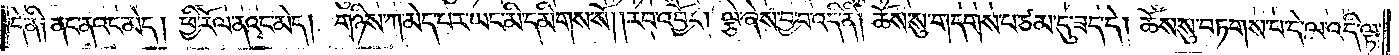དེ་ནི༑ ནང་ནའང་མེད། ཕྱི་རོལ་ནའང་མེད། གཉིས་ཀ་མེད་པར་ཡང་མི་དམིགས་སོ། །རབ་འབྱོར། ལྕེ་ཞེས་བྱ་བ་འདི་ནི། ཆོས་སུ་གདགས་པ་ཙམ་དུ་ཟད་དེ། ཆོས་སུ་བཏགས་པ་དེ་ལ་འདི་ལྟ་
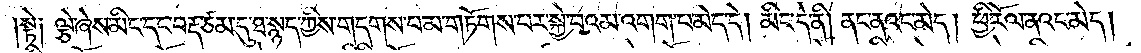སྟེ༑ ལྕེ་ཞེས་མིང་དང་བརྡ་ཙམ་དུ་ཐ་སྙད་ཀྱིས་གདགས་པ་མ་གཏོགས་པར་སྐྱེ་བའམ་འགག་པ་མེད་དེ། མིང་དེ་ནི། ནང་ནའང་མེད། ཕྱི་རོལ་ནའང་མེད།
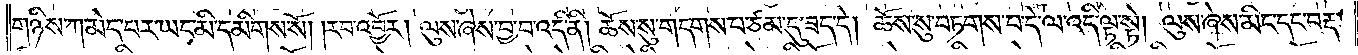གཉིས་ཀ་མེད་པར་ཡང་མི་དམིགས་སོ། །རབ་འབྱོར། ལུས་ཞེས་བྱ་བ་འདི་ནི། ཆོས་སུ་གདགས་པ་ཙམ་དུ་ཟད་དེ། ཆོས་སུ་བཏགས་པ་དེ་ལ་འདི་ལྟ་སྟེ། ལུས་ཞེས་མིང་དང་བརྡ་
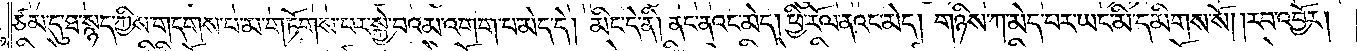ཙམ་དུ་ཐ་སྙད་ཀྱིས་གདགས་པ་མ་གཏོགས་པར་སྐྱེ་བའམ་འགག་པ་མེད་དེ། མིང་དེ་ནི། ནང་ནའང་མེད། ཕྱི་རོལ་ནའང་མེད། གཉིས་ཀ་མེད་པར་ཡང་མི་དམིགས་སོ། །རབ་འབྱོར།
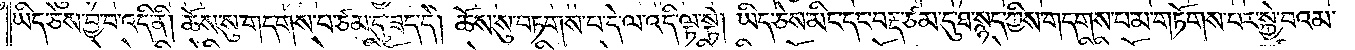ཡིད་ཅེས་བྱ་བ་འདི་ནི། ཆོས་སུ་གདགས་པ་ཙམ་དུ་ཟད་དེ། ཆོས་སུ་བཏགས་པ་དེ་ལ་འདི་ལྟ་སྟེ། ཡིད་ཅེས་མིང་དང་བརྡ་ཙམ་དུ་ཐ་སྙད་ཀྱིས་གདགས་པ་མ་གཏོགས་པར་སྐྱེ་བའམ་
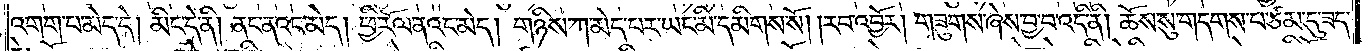འགག་པ་མེད་དེ། མིང་དེ་ནི། ནང་ནའང་མེད། ཕྱི་རོལ་ནའང་མེད། གཉིས་ཀ་མེད་པར་ཡང་མི་དམིགས་སོ། །རབ་འབྱོར། གཟུགས་ཞེས་བྱ་བ་འདི་ནི། ཆོས་སུ་གདགས་པ་ཙམ་དུ་ཟད་
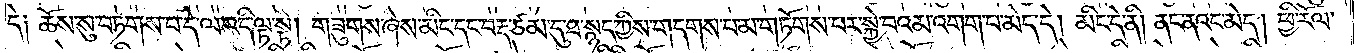དེ༑ ཆོས་སུ་བཏགས་པ་དེ་ལ་འདི་ལྟ་སྟེ། གཟུགས་ཞེས་མིང་དང་བརྡ་ཙམ་དུ་ཐ་སྙད་ཀྱིས་གདགས་པ་མ་གཏོགས་པར་སྐྱེ་བའམ་འགག་པ་མེད་དེ། མིང་དེ་ནི། ནང་ནའང་མེད། ཕྱི་རོལ་
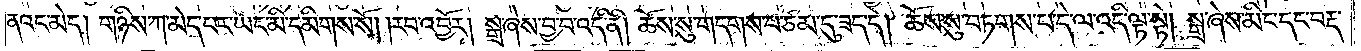ནའང་མེད། གཉིས་ཀ་མེད་པར་ཡང་མི་དམིགས་སོ། །རབ་འབྱོར། སྒྲ་ཞེས་བྱ་བ་འདི་ནི། ཆོས་སུ་གདགས་པ་ཙམ་དུ་ཟད་དེ། ཆོས་སུ་བཏགས་པ་དེ་ལ་འདི་ལྟ་སྟེ། སྒྲ་ཞེས་མིང་དང་བརྡ་
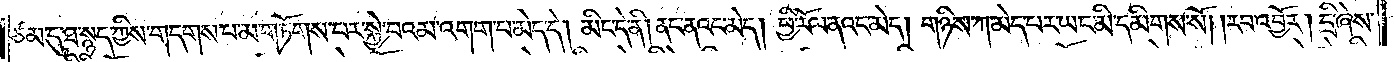ཙམ་དུ་ཐ་སྙད་ཀྱིས་གདགས་པ་མ་གཏོགས་པར་སྐྱེ་བའམ་འགག་པ་མེད་དེ། མིང་དེ་ནི། ནང་ནའང་མེད། ཕྱི་རོལ་ནའང་མེད། གཉིས་ཀ་མེད་པར་ཡང་མི་དམིགས་སོ། །རབ་འབྱོར། དྲི་ཞེས་
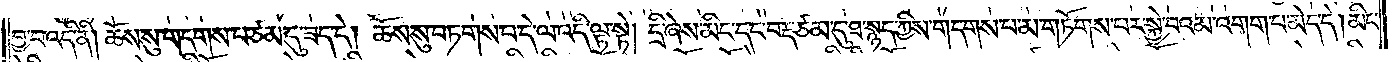བྱ་བ་འདི་ནི། ཆོས་སུ་གདགས་པ་ཙམ་དུ་ཟད་དེ། ཆོས་སུ་བཏགས་པ་དེ་ལ་འདི་ལྟ་སྟེ། དྲི་ཞེས་མིང་དང་བརྡ་ཙམ་དུ་ཐ་སྙད་ཀྱིས་གདགས་པ་མ་གཏོགས་པར་སྐྱེ་བའམ་འགག་པ་མེད་དེ། མིང་
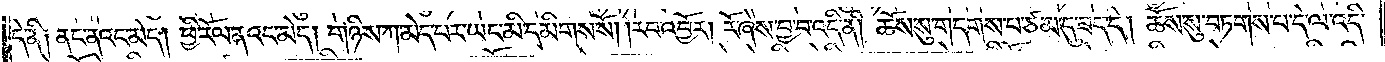དེ་ནི༑ ནང་ནའང་མེད། ཕྱི་རོལ་ནའང་མེད། གཉིས་ཀ་མེད་པར་ཡང་མི་དམིགས་སོ། །རབ་འབྱོར། རོ་ཞེས་བྱ་བ་འདི་ནི། ཆོས་སུ་གདགས་པ་ཙམ་དུ་ཟད་དེ། ཆོས་སུ་བཏགས་པ་དེ་ལ་འདི་
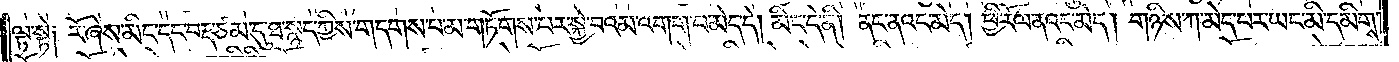ལྟ་སྟེ༑ རོ་ཞེས་མིང་དང་བརྡ་ཙམ་དུ་ཐ་སྙད་ཀྱིས་གདགས་པ་མ་གཏོགས་པར་སྐྱེ་བའམ་འགག་པ་མེད་དེ། མིང་དེ་ནི། ནང་ནའང་མེད། ཕྱི་རོལ་ནའང་མེད། གཉིས་ཀ་མེད་པར་ཡང་མི་དམིགས་
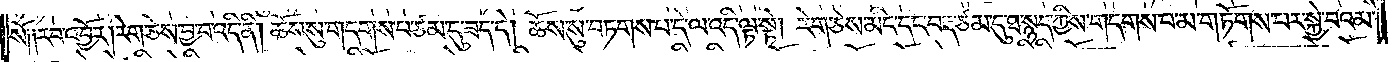སོ༑ ༑རབ་འབྱོར། རེག་ཅེས་བྱ་བ་འདི་ནི། ཆོས་སུ་གདགས་པ་ཙམ་དུ་ཟད་དེ། ཆོས་སུ་བཏགས་པ་དེ་ལ་འདི་ལྟ་སྟེ། རེག་ཅེས་མིང་དང་བརྡ་ཙམ་དུ་ཐ་སྙད་ཀྱིས་གདགས་པ་མ་གཏོགས་པར་སྐྱེ་བའམ་
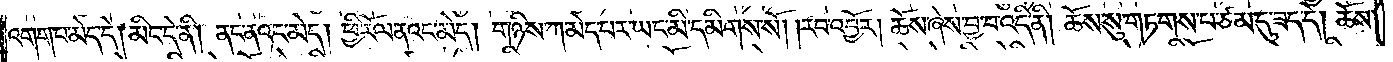འགག་པ་མེད་དེ། མིང་དེ་ནི། ནང་ནའང་མེད། ཕྱི་རོལ་ནའང་མེད། གཉིས་ཀ་མེད་པར་ཡང་མི་དམིགས་སོ། །རབ་འབྱོར། ཆོས་ཞེས་བྱ་བ་འདི་ནི། ཆོས་སུ་གཏགས་པ་ཙམ་དུ་ཟད་དེ། ཆོས་
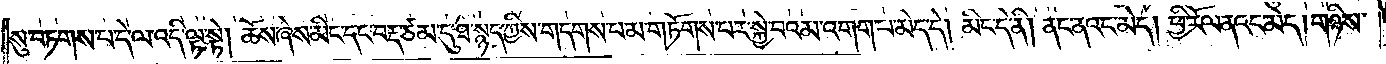སུ་བཏགས་པ་དེ་ལ་འདི་ལྟ་སྟེ། ཆོས་ཞེས་མིང་དང་བརྡ་ཙམ་དུ་ཐ་སྙད་ཀྱིས་གདགས་པ་མ་གཏོགས་པར་སྐྱེ་བའམ་འགག་པ་མེད་དེ། མིང་དེ་ནི། ནང་ནའང་མེད། ཕྱི་རོལ་ནའང་མེད། གཉིས་
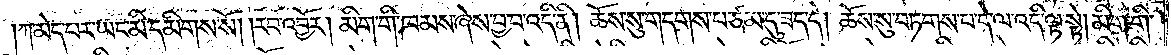ཀ་མེད་པར་ཡང་མི་དམིགས་སོ། །རབ་འབྱོར། མིག་གི་ཁམས་ཞེས་བྱ་བ་འདི་ནི། ཆོས་སུ་གདགས་པ་ཙམ་དུ་ཟད་དེ། ཆོས་སུ་བཏགས་པ་དེ་ལ་འདི་ལྟ་སྟེ། མིག་གི་
